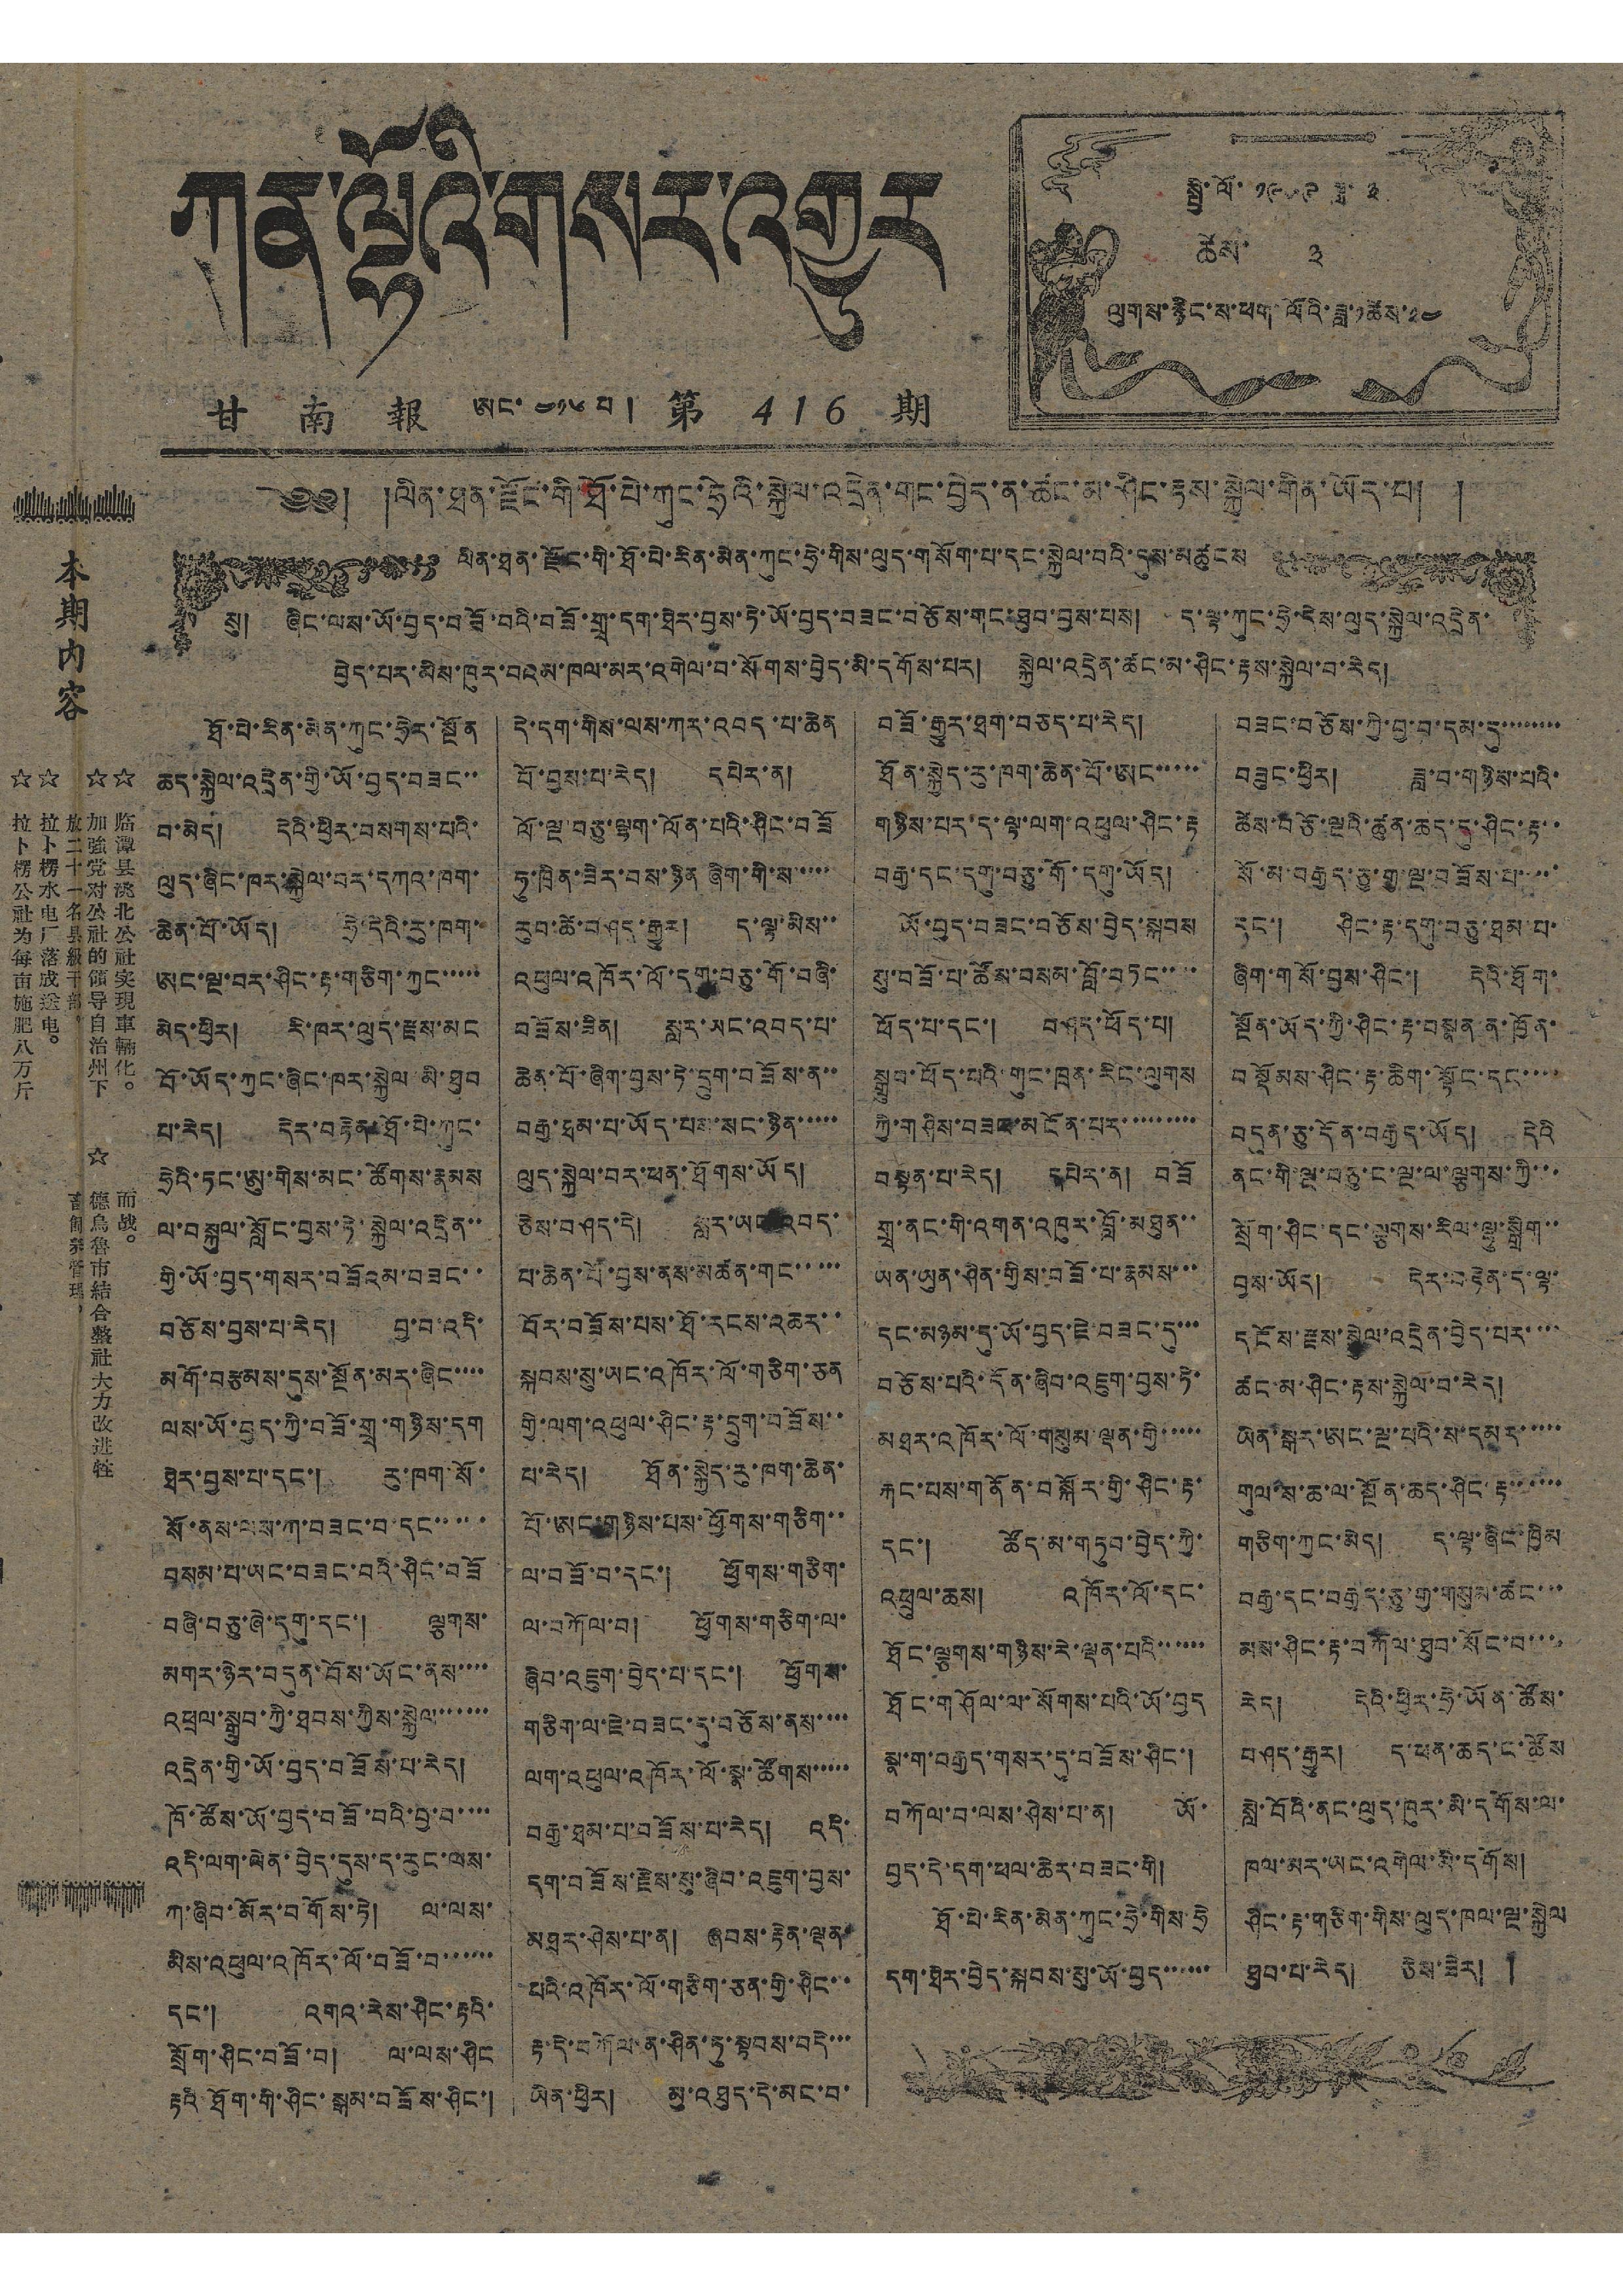ཀན་ལྷོའི་གསར་འགྱུར
甘 南 報 ཨང་ ༤༡༦ པ། 第 416 期
སྤྱི་ལོ་ ༡༩༥༩ ཟླ་ ༣
ཚེས་ ༣
ལུགས་རྙིང་ས་ཕག་ལོའི་ཟླ་༡ཚེས་༢༤
本期內容
☆ 临潭县洮北公社实現車輛化。
☆ 加強党对公社的領导自治州下
放二十一名县級干部。
☆ 拉卜楞水电厂落成送电。
☆ 拉卜楞公社为每亩施肥八万斤
而战。
☆ 德烏魯市結合整社大力改进牲
畜飼养管理。
༄༅། །ལིན་ཐན་རྫོང་གི་ཐོ་པེ་ཀུང་ཧྲེའི་སྐྱེལ་འདྲེན་གང་བྱེད་ན་ཚང་མ་ཤིང་རྟས་སྐྱེལ་གིན་ཡོད་པ། །
ལིན་ཐན་རྫོང་གི་ཐོ་པེ་རིན་མེན་ཀུང་ཧྲེ་གིས་ལུད་གསོག་པ་དང་སྐྱེལ་བའི་དུས་མཚུངས་
སུ། ཞིང་ལས་ཡོ་བྱད་བཟོ་བའི་བཟོ་གྲྭ་དག་ཐེར་བྱས་ཏེ་ཡོ་བྱད་བཟང་བཅོས་གང་ཐུབ་བྱས་པས། ད་ལྟ་ཀུང་ཧྲེ་དེས་ལུད་སྐྱེལ་འདྲེན་
བྱེད་པར་མེས་ཁུར་བའམ་ཁལ་མར་འགེལ་བ་སོགས་བྱེད་མི་དགོས་པར། སྐྱེལ་འདྲེན་ཚང་མ་ཤིང་རྟས་སྐྱེལ་བ་རེད།
ཐོ་པེ་རིན་མེན་ཀུང་ཧྲེར་སྔོན
ཆད་སྐྱེལ་འདྲེན་གྱི་ཡོ་བྱད་བཟང་་
བ་མེད། དེའི་ཕྱིར་བསགས་པའི་
ལུད་ཞིང་ཁར་སྐྱེལ་བར་དཀའ་ཁག་
ཆེན་པོ་ཡོད། ཧྲེ་དེའི་རུ་ཁག་་
ཨང་ལྔ་བར་ཤིང་རྟ་གཅིག་ཀྱང་་་་་
མེད་ཕྱིར། རི་ཁར་ལུད་རྫས་མང
བོ་ཡོད་ཀྱང་ཞིང་ཁར་སྐྱེལ་མི་ཐུབ
པ་རེད། དེར་བརྟེན་ཐོ་པེ་ཀུང་
ཧྲེའི་ཏང་ཨུ་གིས་མང་ཚོགས་རྣམས
ལ་བསྐུལ་སློང་བྱས་ཏེ་སྐྱེལ་འདྲེན་་
གྱི་ཡོ་བྱད་གསར་བཟོའམ་བཟང་་
བཅོས་བྱས་པ་རེད། བྱ་བ་འདི་
མགོ་བརྩམས་དུས་སྔོན་མར་ཞིང་་་་
ལས་ཡོ་བྱད་ཀྱི་བཟོ་གྲྭ་གཉིས་དག
ཐེར་བྱས་པ་དང་། རུ་ཁག་སོ་
སོ་ནས་ལས་ཀ་བཟང་བ་དང་་་་་
བསམ་པ་ཡང་བཟང་བའི་ཤིང་བཟོ
བཞི་བཅུ་ཞེ་དགུ་དང་། ལྕགས་
མགར་ཉེར་བདུན་བོས་ཡོང་ནས་་་་
འཕྲལ་སྒྲུབ་ཀྱི་ཐབས་ཀྱིས་སྐྱེལ་་་་་་
འདྲེན་གྱི་ཡོ་བྱད་བཟོས་པ་རེད།
ཁོ་ཚོས་ཡོ་བྱད་བཟོ་བའི་བྱ་བ་་་་
འདི་ལག་ལེན་བྱེད་དུས་ད་རུང་ལས་
ཀ་ཞིབ་མོར་བགོས་ཏེ། ལ་ལས་
མིས་འཕུལ་འཁོར་ལོ་བཟོ་བ་་་་་་
དང་། འགའ་རེས་ཤིང་རྟའི་
སྲོག་ཤིང་བཟོ་བ། ལ་ལས་ཤིང
རྟའི་ཐོག་གི་ཤིང་སྒམ་བཟོས་ཤིང་།
དེ་དག་གིས་ལས་ཀར་འབད་པ་ཆེན
པོ་བྱས་པ་རེད། དཔེར་ན།
ལོ་ལྔ་བཅུ་ལྷག་ལོན་པའི་ཤིང་བཟོ
ཧུ་ཁྲིན་ཟེར་བས་ཉིན ཞིག་གི་ས་་་་་
རུབ་ཚེ་བཤད་རྒྱུར། ད་ལྟ་མིས་་
འཕུལ་འཁོར་ལོ་དགུ་བཅུ་གོ་བཞི་
བཟོས་ཟིན། སླར་ཡང་འབད་པ་
ཆེན་པོ་ཞིག་བྱས་ཏེ་དྲུག་བཟོས་ན་་
བརྒྱ་ཐམ་པ་ཡོད་པས་སང་ཉིན་་་་་
ལུད་སྐྱེལ་བར་ཕན་ཐོགས་ཡོད།
ཅེས་བཤད་དེ། སླར་ཡང་འབད་
པ་ཆེན་པོ་བྱས་ནས་མཚན་གང་་་་་
བོར་བཟོས་པས་ཐོ་རངས་འཆར་་
སྐབས་སུ་ཡང་འཁོར་ལོ་གཅིག་ཅན
གྱི་ལག་འཕུལ་ཤིང་རྟ་དྲུག་བཟོས་་
པ་རེད། ཐོན་སྐྱེད་རུ་ཁག་ཆེན་
པོ་ཨང་གཉིས་པས་ཕྱོགས་གཅིག་་
ལ་བཟོ་བ་དང་། ཕྱོགས་གཅིག་
ལ་བཀོལ་བ། ཕྱོགས་གཅིག་ལ་
ཞིབ་འཇུག་བྱེད་པ་དང་། ཕྱོགས་
གཅིག་ལ་ཇེ་བཟང་དུ་བཅོས་ནས་་་་
ལག་འཕུལ་འཁོར་ལོ་སྣ་ཚོགས་་་་་
བརྒྱ་ཐམ་པ་བཟོས་པ་རེད། འདི་
དག་བཟོས་རྗེས་སུ་ཞིབ་འཇུག་བྱས་
མཐར་ཤེས་པ་ན། ཞབས་རྟེན་ལྡན་
པའི་འཁོར་ལོ་གཅིག་ཅན་གྱི་ཤིང་་
རྟ་དེ་བཀོལ་ན་ཤིན་ཏུ་སྟབས་བདེ་་་
ཡིན་ཕྱིར། མུ་འཐུད་དེ་མང་བ་
བཟོ་རྒྱུར་ཐག་བཅད་པ་རེད།
ཐོན་སྐྱེད་རུ་ཁག་ཆེན་པོ་ཨང་་་་་
གཉིས་པར་ད་ལྟ་ལག་འཕུལ་ཤིང་རྟ
བརྒྱ་དང་དགུ་བཅུ་གོ་དགུ་ཡོད།
ཡོ་བྱད་བཟང་བཅོས་བྱེད་སྐབས
སུ་བཟོ་པ་ཚོས་བསམ་བློ་བཏང་་་་
ཕོད་པ་དང་། བཤད་ཕོད་པ།
སྒྲུབ་ཕོད་པའི་གུང་ཁྲན་རིང་ལུགས
ཀྱི་གཤིས་བཟང་མངོན་པར་་་་་་་་་
བསྟན་པ་རེད། དཔེར་ན། བཟོ
གྲྭ་ནང་གི་འགན་འཁུར་བློ་མཐུན་་
ཡན་ཡུན་ཤིན་གྱིས་བཟོ་པ་རྣམས་་་
དང་མཉམ་དུ་ཡོ་བྱད་ཇེ་བཟང་དུ་་་
བཅོས་པའི་དོན་ཞིབ་འཇུག་བྱས་ཏེ་
མཐར་འཁོར་ལོ་གསུམ་ལྡན་གྱི་་་་་
རྐང་པས་གནོན་བསྐོར་གྱི་ཤིང་རྟ་
དང་། ཚོད་མ་གཏུབ་བྱེད་ཀྱི་
འཕྲུལ་ཆས། འཁོར་ལོ་དང་
ཐོང་ལྕགས་གཉིས་རེ་ལྡན་པའི་་་་་་
ཐོང་གཤོལ་ལ་སོགས་པའི་ཡོ་བྱད
སྣ་ག་བརྒྱད་གསར་དུ་བཟོས་ཤིང་།
བཀོལ་བ་ལས་ཤེས་པ་ན། ཡོ་
བྱད་དེ་དག་ཕལ་ཆེར་བཟང་གི།
ཐོ་པེ་རིན་མེན་ཀུང་ཧྲེ་གིས་ཧྲེ
དག་ཐེར་བྱེད་སྐབས་སུ་ཡོ་བྱད་་་་་་
བཟང་བཅོས་ཀྱི་བྱ་བ་དམ་དུ་་་་་་་་
བཟུང་ཕྱིར། ཟླ་བ་གཉིས་པའི་
ཚེས་བཅོ་ལྔའི་ཚུན་ཆད་དུ་ཤིང་རྟ་་
སོ་མ་བརྒྱད་ཅུ་གྱ་ལྔ་བཟོས་པ་་་་་
དང་། ཤིང་རྟ་དགུ་བཅུ་ཐམ་པ་
ཞིག་གསོ་བྱས་ཤིང་། དེའི་ཐོག་
སྔོན་ཡོད་ཀྱི་ཤིང་རྟ་བསྣན་ན་ཁྱོན་
བསྡོམས་ཤིང་རྟ་ཆིག་སྟོང་དང་་་་
བདུན་ཅུ་དོན་བརྒྱད་ཡོད། དེའི
ནང་གི་ལྔ་བཅུ་ང་ལྔ་ལ་ལྕགས་ཀྱི་་་
སྲོག་ཤིང་དང་ལྕགས་རིལ་ལྷུ་སྒྲིག་་
བྱས་ཡོད། དེར་བརྟེན་ད་ལྟ་
དངོས་རྫས་སྐྱེལ་འདྲེན་བྱེད་པར་་་་
ཚང་མ་ཤིང་རྟས་སྐྱེལ་བ་རེད།
ཡིན་སྒར་ཨང་ལྔ་པའི་ས་དམར་་་་་
གུལ་ས་ཆ་ལ་སྔོན་ཆད་ཤིང་རྟ་་་་་
གཅིག་ཀྱང་མེད། ད་ལྟ་ཞིང་ཁྱིམ
བརྒྱ་དང་བརྒྱད་ཅུ་གྱ་གསུམ་ཚང་་་
མས་ཤིང་རྟ་བཀོལ་ཐུབ་སོང་བ་་་
རེད། དེའི་ཕྱིར་ཧྲེ་ཡོན་ཚོས་
བཤད་རྒྱུར། ད་ཕན་ཆད་ང་ཚོས
སླེ་བོའི་ནང་ལུད་ཁུར་མི་དགོས་ལ་
ཁལ་མར་ཡང་འགེལ་མི་དགོས།
ཤིང་རྟ་གཅིག་གིས་ལུད་ཁལ་ལྔ་སྐྱེལ
ཐུབ་པ་རེད། ཅེས་ཟེར། །
